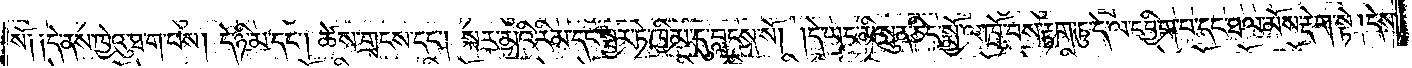སོ༑ ༑དེ་ནས་ཁྱེའུ་ཐ་ག་པས། དེ་ཉི་མ་དང༌། ཚེས་གྲངས་དང༌། སྐར་མའི་རིམ་དང་སྦྱར་ཏེ་ཁྱིམ་དུ་བླངས་སོ། །དེ་ཡང་མི་སྲུན་ཅིང་སྨྱོ་ལ་ཁྲོ་བས་རྟག་ཏུ་དེ་ལ་དབྱིག་པ་དང་ཐལ་མོས་རྡེག་སྟེ། དེས་
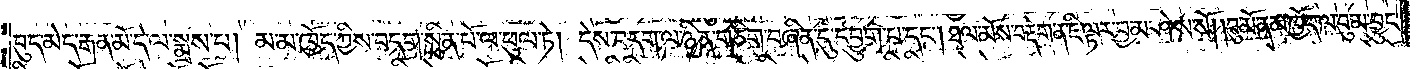བུད་མེད་རྒན་མོ་དེ་ལ་སྨྲས་པ། མ་མ་ཁྱོད་ཀྱིས་བདག་སྲིན་པོ་ལ་ཕུལ་ཏེ། དེས་བདག་ལ་ཉིན་གཅིག་བཞིན་དུ་དབྱུག་པ་དང༌། ཐལ་མོས་བརྡེག་ན་ཇི་ལྟར་བྱ་མ་ཤེས་སོ། །བུ་མོ་ནམ་ཁྱོད་ལ་བུ་མ་བྱུང་
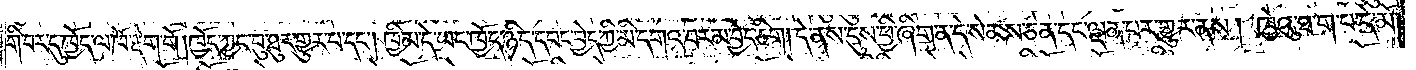གི་བར་དུ་ཁྱོད་ལ་ཁོ་རྡེག་གོ །ཁྱོད་ཀྱང་བུ་ཐུར་གྱུར་པ་དང༌། ཁྱིམ་དེ་ཡང་ཁྱོད་ཉིད་དབང་བྱེད་ཀྱི་མི་དགའ་བར་མ་བྱེད་ཅིག། དེ་ནས་དུས་ཕྱི་ཞིག་ན་དེ་སེམས་ཅན་དང་ལྡན་པར་གྱུར་ནས། ཁྱེའུ་ཐ་ག་པ་དེ་མོ་
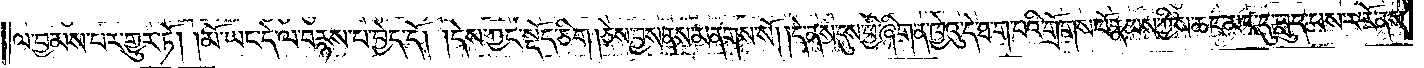ལ་བྱམས་པར་གྱུར་ཏོ། །མོ་ཡང་དེ་ལ་བརྙས་པ་བྱེད་དོ། །དེས་ཀྱང་སྡོད་ཅིག །ཅེས་བྱས་ནས་མནགས་སོ། །དེ་ནས་དུས་ཕྱི་ཞིག་ན་ཁྱེའུ་དེ་ཐ་ག་བའི་གྲོགས་པོ་རྣམས་ཀྱིས་ཆང་མང་དུ་བླུད་པས་ར་རོ་ནས།
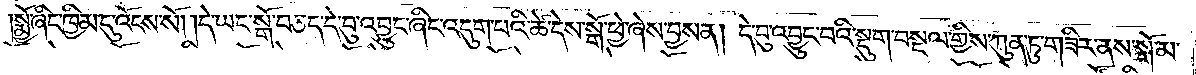སྨྱོ་ཞིང་ཁྱིམ་དུ་འོངས་སོ། །དེ་ཡང་སྒོ་བཅད་དེ་བུ་འབྱུང་ཞིང་འདུག་པའི་ཚེ་དེས་སྒོ་ཕྱེ་ཞེས་བྱས་ན། དེ་བུ་འབྱུང་བའི་སྡུག་བསྔལ་གྱིས་ཀུན་ཏུ་གཟིར་ནས་སྒོ་མ་
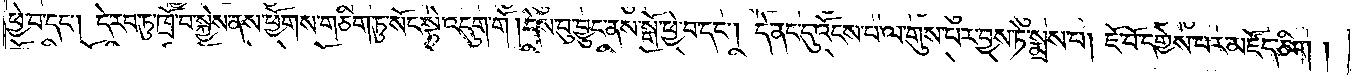ཕྱེ་བ་དང༌། དེ་རབ་ཏུ་ཁྲོ་བ་སྐྱེས་ནས་ཕྱོགས་གཅིག་ཏུ་སོང་སྟེ་འདུག་གོ། །དེས་བུ་བྱུང་ནས་སྒོ་ཕྱེ་བ་དང༌། དེ་ནང་དུ་འོངས་པ་ལ་གུས་པར་བྱས་ཏེ་སྨྲས་པ། ཇོ་བོ་དགྱེས་པར་མཛོད་ཅིག།
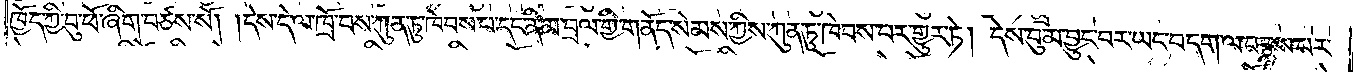ཁྱོད་ཀྱི་བུ་ཕོ་ཞིག་བཙས་སོ། །དེས་དེ་ལ་ཁྲོ་བས་ཀུན་ཏུ་ཁེབས་པ་དང་ནི་མ་བྲལ་གྱི་གནོད་སེམས་ཀྱིས་ཀུན་ཏུ་ཁེབས་པར་གྱུར་ཏེ། དེས་བུ་མ་བྱུང་བར་ཡང་བདག་ལ་བརྙས་པར་
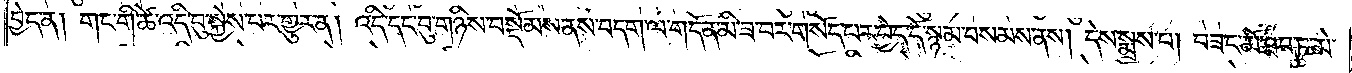བྱེད་ན། གང་གི་ཚེ་འདི་བུ་སྐྱེས་པར་གྱུར་ན། འདི་དང་བུ་གཉིས་བསྡོམས་ནས་བདག་ལ་གདོན་མི་ཟ་བར་གསོད་པར་བྱེད་དོ་སྙམ་བསམས་ནས། དེས་སྨྲས་པ། བཟང་མོ་ཐབ་ཏུ་མེ་
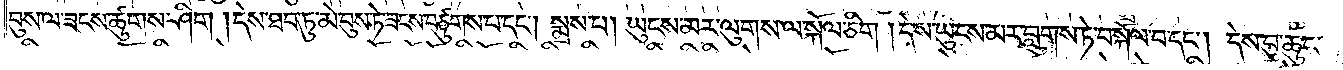བུས་ལ་ཟངས་ཚུགས་ཤིག །དེས་ཐབ་ཏུ་མེ་བུས་ཏེ་ཟངས་བཙུགས་པ་དང༌། སྨྲས་པ། ཡུངས་མར་ལུགས་ལ་སྐོལ་ཅིག །དེས་ཡུངས་མར་བླུགས་ཏེ་བསྐོལ་བ་དང༌། དེས་བུ་ཆུང་
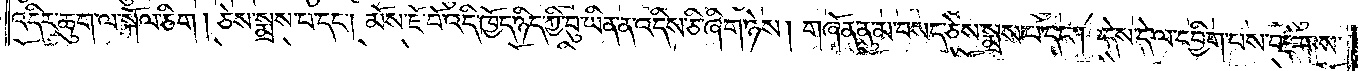འདིར་ཆུག་ལ་སྐོལ་ཅིག། ཅེས་སྨྲས་པ་དང༌། མོས་ཇོ་བོ་འདི་ཁྱོད་ཉིད་ཀྱི་བུ་ཡིན་ན་འདིས་ཅི་ཞིག་ཉེས། གཞོན་ནུ་མ་བསད་ཅེས་སྨྲས་པ་དང༌། དེས་དེ་ལ་དབྱིག་པས་བརྡེགས་
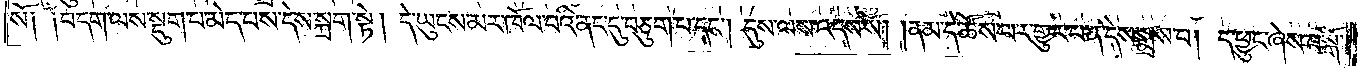སོ༑ ༑བདག་ལས་སྡུག་པ་མེད་པས་དེས་སྐྲག་སྟེ། དེ་ཡུངས་མར་ཁོལ་བའི་ནང་དུ་བཅུག་པ་དང༌། དུས་ལས་འདས་སོ། །ནམ་དེ་ཚོས་པར་གྱུར་བ་ན་དེས་སྨྲས་པ། ད་ཕྱུང་ཞེས་བསྒོ་
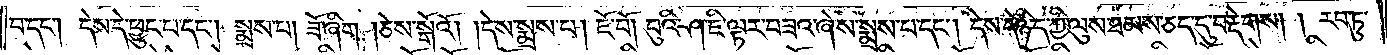བ་དང༌། དེས་དེ་ཕྱུང་པ་དང༌། སྨྲས་པ། ཟོ་ཞིག །ཅེས་སྒོའོ། །དེས་སྨྲས་པ། ཇོ་བོ། བུའི་ཤ་ཇི་ལྟར་བཟའ་ཞེས་སྨྲས་པ་དང༌། དེས་དེ་ཉིད་ཀྱི་ལུས་ཐམས་ཅད་དུ་བརྡེགས། །རབ་ཏུ་
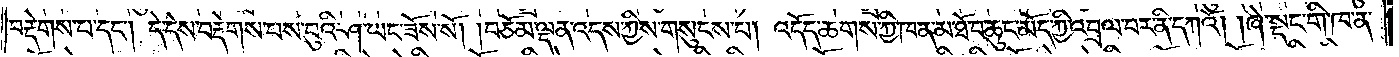བརྡེགས་པ་དང༌། དེ་དེས་བརྡེགས་པས་བུའི་ཤ་ཡང་ཟོས་སོ། །བཅོམ་ལྡན་འདས་ཀྱིས་གསུངས་པ། འདོད་ཆགས་ཀྱི་ཁ་ན་མ་ཐོ་བ་ཆུང་མོད་ཀྱི་འབྲལ་བར་ནི་དཀའོ། །ཞེ་སྡང་གི་ཁ་ན་
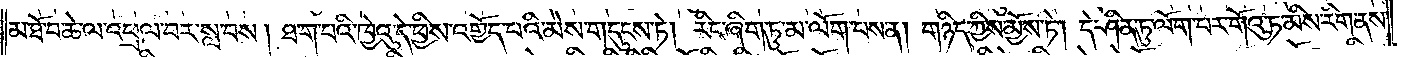མ་ཐོ་བ་ཆེ་ལ་འཕྲལ་བར་སླ་བས་།ཐ་ག་པའི་ཁྱེའུ་དེ་ཕྱིས་འགྱོད་པའི་མེས་གདུངས་ཏེ། རིང་ཞིག་ཏུ་མ་ལོག་པས་ན། གཉིད་ཀྱིས་མྱོས་ཏེ། དེ་ཤིན་ཏུ་ལོག་པར་གོའུ་ཏ་མིས་རིག་ནས་
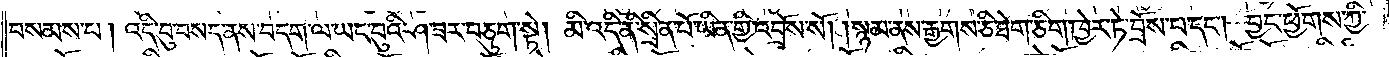བསམས་པ། འདི་བུ་བསད་ནས་བདག་ལ་ཡང་བུའི་ཤ་ཟར་བཅུག་སྟེ། མི་འདི་ནི་སྲིན་པོ་ཡིན་གྱི་འབྲོས་སོ། །སྙམ་ནས་རྒྱགས་ཅི་ཐེག་ཅིག་ཁྱེར་ཏེ་བྲོས་པ་དང༌། བྱང་ཕྱོགས་ཀྱི་
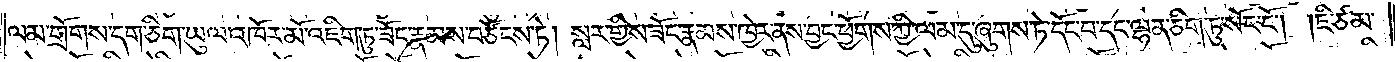ལམ་གྲོགས་དག་ཅིག་ཡུལ་འཁོར་མོ་འཇིག་ཏུ་ཟོང་རྣམས་བཙོངས་ཏེ། སླར་གྱིས་ཟོང་རྣམས་ཁྱེར་ནས་བྱང་ཕྱོགས་ཀྱི་ལམ་དུ་ཞུགས་ཏེ་དོང་བ་དང་ལྷན་ཅིག་ཏུ་སོང་ངོ༌། །ཇི་ཙམ་
